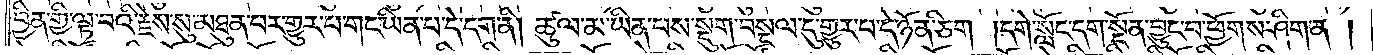བྱིན་གྱི་ལྟ་བའི་རྗེས་སུ་མཐུན་པར་གྱུར་པ་གང་ཡིན་པ་དེ་དག་ནི། ཚུལ་མ་ཡིན་པས་སྡུག་བསྔལ་དུ་གྱུར་པ་དེ་ཉོན་ཅིག །དགེ་སློང་དག་སྔོན་བྱུང་བ་ཕྱོགས་ཤིག་ན །
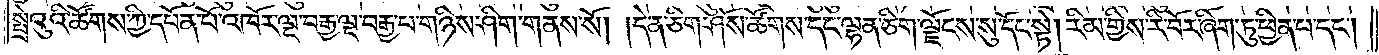སྤྲེའུའི་ཚོགས་ཀྱི་དཔོན་པོ་འཁོར་ལྔ་བརྒྱ་ལྔ་བརྒྱ་པ་གཉིས་ཤིག་གནས་སོ། །དེ་ན་ཅིག་ཤོས་ཚོགས་དང་ལྷན་ཅིག་ལྗོངས་སུ་དོང་སྟེ། རིམ་གྱིས་རི་པོར་ཞིག་ཏུ་ཕྱིན་པ་དང༌།
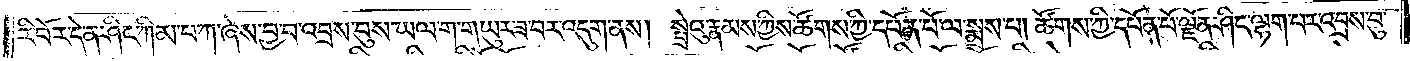རི་བོར་དེ་ན་ཤིང་ཀིམ་པ་ཀ་ཞེས་བྱ་བ་འབྲས་བུས་ཡལ་ག་གཡུར་ཟ་བར་འདུག་ནས། སྤྲེའུ་རྣམས་ཀྱིས་ཚོགས་ཀྱི་དཔོན་པོ་ལ་སྨྲས་པ། ཚོགས་ཀྱི་དཔོན་པོ་ལྗོན་ཤིང་ལྷག་པར་འབྲས་བུ་
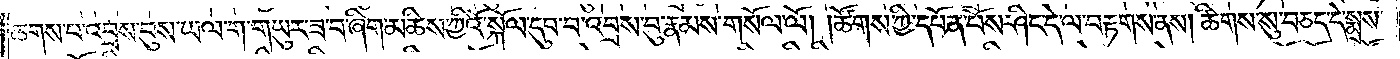ཆགས་པ་འབྲས་བུས་ཡལ་ག་གཡུར་ཟ་བ་ཞིག་མཆིས་ཀྱིའོ་སྐོལ་དུབ་པ་འབྲས་བུ་རྣམས་གསོལ་ལོ། །ཚོགས་ཀྱི་དཔོན་པོས་ཤིང་དེ་ལ་བརྟགས་ནས། ཚིགས་སུ་བཅད་དེ་སྨྲས་
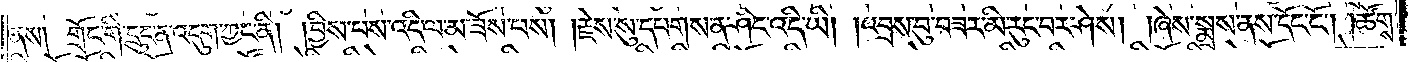ནས། གྲོང་གི་དྲུང་ན་འདུག་ཀྱང་ནི། །བྱིས་པས་འདི་ལ་མ་ཟོས་པས། །རྗེས་སུ་དཔགས་ན་ཤིང་འདི་ཡི། །འབྲས་བུ་བཟར་མི་རུང་བར་ཤེས། །ཞེས་སྨྲས་ནས་དོང་ངོ༌། །ཚོགས་
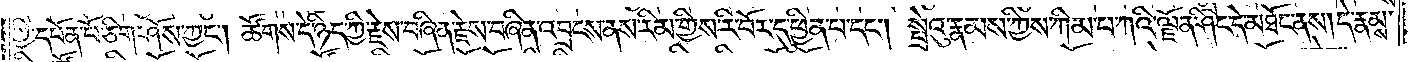ཀྱི་དཔོན་པོ་ཅིག་ཤོས་ཀྱང༌། ཚོགས་དེ་ཉིད་ཀྱི་རྗེས་བཞིན་རྗེས་བཞིན་འབྲངས་ནས་རིམ་གྱིས་རི་བོར་དུ་ཕྱིན་པ་དང༌། སྤྲེའུ་རྣམས་ཀྱིས་ཀིམ་པ་ཀའི་ལྗོན་ཤིང་དེ་མཐོང་ནས། དེ་རྣམས་
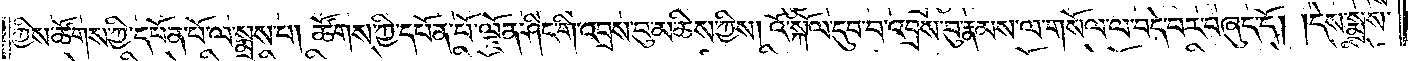ཀྱིས་ཚོགས་ཀྱི་དཔོན་པོ་ལ་སྨྲས་པ། ཚོགས་ཀྱི་དཔོན་པོ་ལྗོན་ཤིང་གི་འབྲས་བུ་མཆིས་ཀྱིས། འོ་སྐོལ་དུབ་པ་འབྲས་བུ་རྣམས་ལ་གསོལ་ལ་བདེ་བར་བཞུད་དོ། །དེས་སྨྲས་
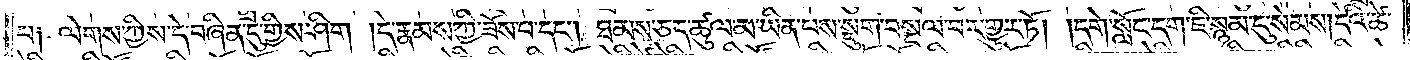པ༑ ལེགས་ཀྱིས་དེ་བཞིན་དུ་གྱིས་ཤིག །དེ་རྣམས་ཀྱི་ཟོས་པ་དང༌། ཐམས་ཅད་ཚུལ་མ་ཡིན་པས་སྡུག་བསྔལ་བར་གྱུར་ཏོ། །དགེ་སློང་དག་ཇི་སྙམ་དུ་སེམས། དེའི་ཚེ་
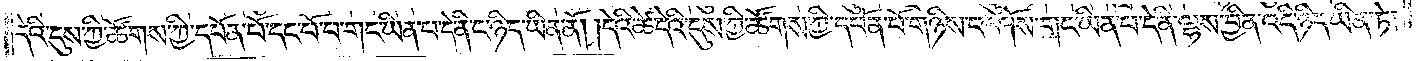དེའི་དུས་ཀྱི་ཚོགས་ཀྱི་དཔོན་པོ་དང་པོ་པ་གང་ཡིན་པ་དེ་ནི་ང་ཉིད་ཡིན་ནོ། །དེའི་ཚེ་དེའི་དུས་ཀྱི་ཚོགས་ཀྱི་དཔོན་པོ་གཉིས་བ་ཤོས་གང་ཡིན་པ་དེ་ནི་ལྷས་བྱིན་འདི་ཉིད་ཡིན་ཏེ།
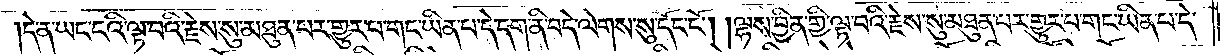དེ་ན་ཡང་ངའི་ལྟ་བའི་རྗེས་སུ་མཐུན་པར་གྱུར་པ་གང་ཡིན་པ་དེ་དག་ནི་བདེ་ལེགས་སུ་དོང་ངོ༌། །ལྷས་བྱིན་གྱི་ལྟ་བའི་རྗེས་སུ་མཐུན་པར་གྱུར་པ་གང་ཡིན་པ་དེ་
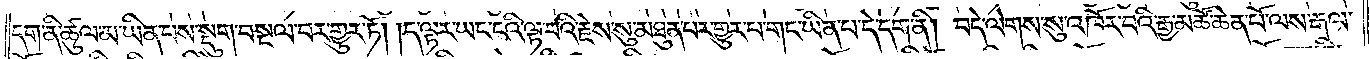དག་ནི་ཚུལ་མ་ཡིན་པས་སྡུག་བསྔལ་བར་གྱུར་ཏོ། །ད་ལྟར་ཡང་ངའི་ལྟ་བའི་རྗེས་སུ་མཐུན་པར་གྱུར་པ་གང་ཡིན་པ་དེ་དག་ནི། །བདེ་ལེགས་སུ་འཁོར་བའི་རྒྱ་མཚོ་ཆེན་པོ་ལས་རྒལ་
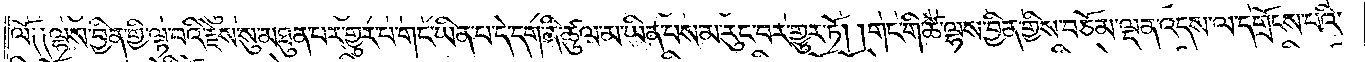ལོ༑ ༑ལྷས་བྱིན་གྱི་ལྟ་བའི་རྗེས་སུ་མཐུན་པར་གྱུར་པ་གང་ཡིན་པ་དེ་དག་ནི་ཚུལ་མ་ཡིན་པས་མ་རུང་བར་གྱུར་ཏོ། །གང་གི་ཚེ་ལྷས་བྱིན་གྱིས་བཅོམ་ལྡན་འདས་ལ་དགྲོངས་པའི་
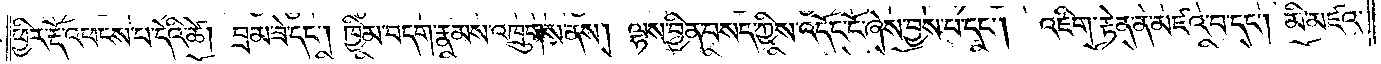ཕྱིར་རྡོ་འཕངས་པ་དེའི་ཚེ། བྲམ་ཟེ་དང༌། ཁྱིམ་བདག་རྣམས་འཁྲུགས་ནས། ལྷས་བྱིན་བསད་ཀྱིས་འདོང་ངོ་ཞེས་བྱས་པ་དང༌། འཇིག་རྟེན་ན་མཛའ་བ་དང༌། མི་མཛའ་
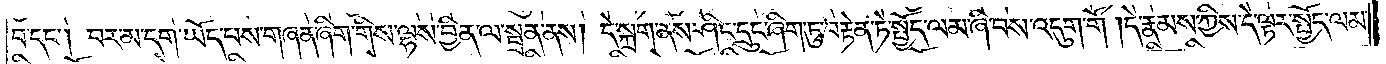བ་དང༌། བར་མ་དག་ཡོད་པས་གཞན་ཞིག་གིས་ལྷས་བྱིན་ལ་སྦྲན་ནས། དེ་སྐྲག་ནས་ཤིང་དྲུང་ཞིག་ཏུ་བརྟེན་ཏེ་སྤྱོད་ལམ་ཞི་བས་འདུག་གོ །དེ་རྣམས་ཀྱིས་དེ་ལྟར་སྤྱོད་ལམ་
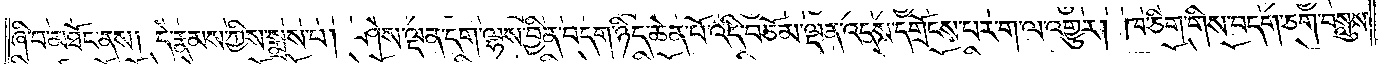ཞི་བ་མཐོང་ནས། དེ་རྣམས་ཀྱིས་སྨྲས་པ། ཤེས་ལྡན་དག་ལྷས་བྱིན་བདག་ཉིད་ཆེན་པོ་འདི་བཅོམ་ལྡན་འདས་དགྲོངས་པར་ག་ལ་འགྱུར། །ཁ་ཅིག་གིས་བདག་ཅག་བསླུས་
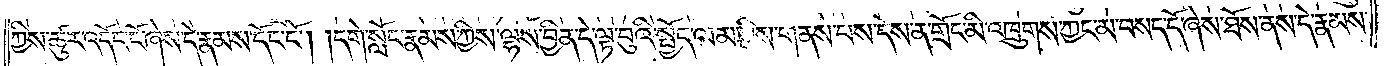ཀྱིས་ཚུར་འདོང་ངོ་ཞེས་དེ་རྣམས་དོང་ངོ༌། །དགེ་སློང་རྣམས་ཀྱིས་ལྷས་བྱིན་དེ་ལྟ་བུའི་སྤྱོད་ལམ་གྱིས་གནས་པས་དེས་ན་གྲོང་མི་འཁྲུགས་ཀྱང་མ་བསད་དོ་ཞེས་ཐོས་ནས་དེ་རྣམས་
